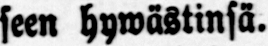seen hywästinsä.
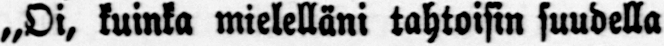„Oi, kuinka mielelläni tahtoisin suudella
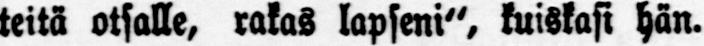teitä otsalle, rakas lapseni", kuiskasi hän.
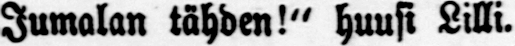„Jumalan tähden!" huusi Lilli.
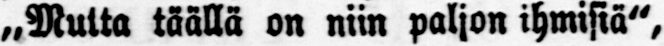„Mutta täällä on niin paljon ihmisiä",
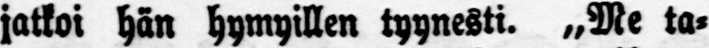jatkoi hän hymyillen tyynesti. „Me ta-
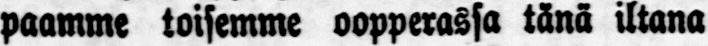paamme toisemme oopperassa tänä iltana
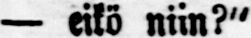— eikö niin?"
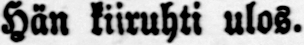Hän kiiruhti ulos.
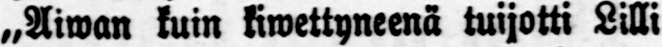„Aiwan kuin kiwettyneenä tuijotti Lilli
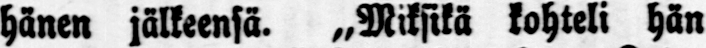hänen jälkeensä. „Miksikä kohteli hän
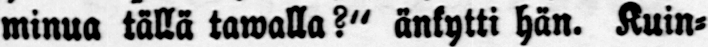minua tällä tawalla?" änkytti hän. Kuin-
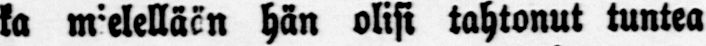ka mielellään hän olisi tahtonut tuntea
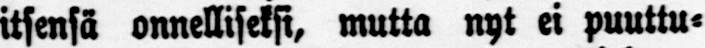itsensä onnelliseksi, mutta nyt ei puuttu-
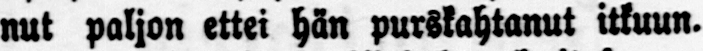nut paljon ettei hän purskahtanut itkuun.
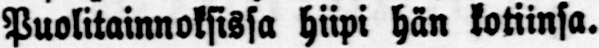Puolitainnoksissa hiipi hän kotiinsa.
